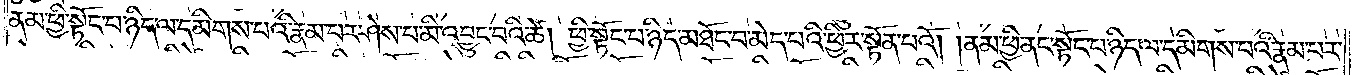ནམ་ཕྱི་སྟོང་པ་ཉིད་ལ་དམིགས་པའི་རྣམ་པར་ཤེས་པ་མི་འབྱུང་བའི་ཚེ། ཕྱི་སྟོང་པ་ཉིད་མཐོང་བ་མེད་པའི་ཕྱིར་སྟོན་པའོ། །ནམ་ཕྱི་ནང་སྟོང་པ་ཉིད་ལ་དམིགས་པའི་རྣམ་པར་
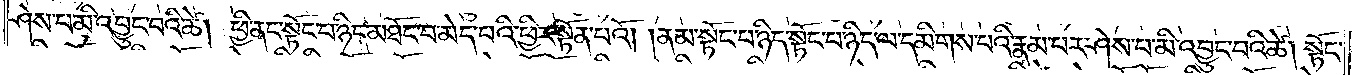ཤེས་པ་མི་འབྱུང་བའི་ཚེ། ཕྱི་ནང་སྟོང་པ་ཉིད་མཐོང་བ་མེད་པའི་ཕྱིར་སྟོན་པའོ། །ནམ་སྟོང་པ་ཉིད་སྟོང་པ་ཉིད་ལ་དམིགས་པའི་རྣམ་པར་ཤེས་པ་མི་འབྱུང་བའི་ཚེ། སྟོང་
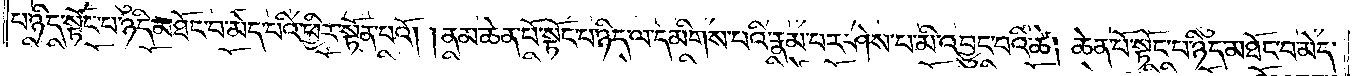པ་ཉིད་སྟོང་པ་ཉིད་མཐོང་བ་མེད་པའི་ཕྱིར་སྟོན་པའོ། །ནམ་ཆེན་པོ་སྟོང་པ་ཉིད་ལ་དམིགས་པའི་རྣམ་པར་ཤེས་པ་མི་འབྱུང་བའི་ཚེ། ཆེན་པོ་སྟོང་པ་ཉིད་མཐོང་བ་མེད་
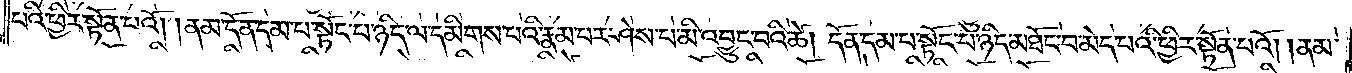པའི་ཕྱིར་སྟོན་པའོ། །ནམ་དོན་དམ་པ་སྟོང་པ་ཉིད་ལ་དམིགས་པའི་རྣམ་པར་ཤེས་པ་མི་འབྱུང་བའི་ཚེ། དོན་དམ་པ་སྟོང་པ་ཉིད་མཐོང་བ་མེད་པའི་ཕྱིར་སྟོན་པའོ། །ནམ་
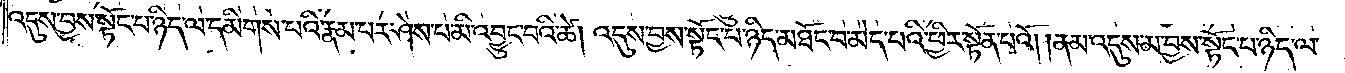འདུས་བྱས་སྟོང་པ་ཉིད་ལ་དམིགས་པའི་རྣམ་པར་ཤེས་པ་མི་འབྱུང་བའི་ཚེ། འདུས་བྱས་སྟོང་པ་ཉིད་མཐོང་བ་མེད་པའི་ཕྱིར་སྟོན་པའོ། །ནམ་འདུས་མ་བྱས་སྟོང་པ་ཉིད་ལ་
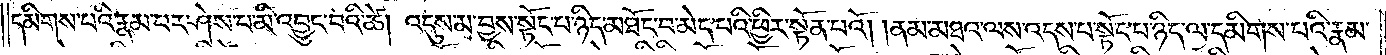དམིགས་པའི་རྣམ་པར་ཤེས་པ་མི་འབྱུང་བའི་ཚེ། འདུས་མ་བྱས་སྟོང་པ་ཉིད་མཐོང་བ་མེད་པའི་ཕྱིར་སྟོན་པའོ། །ནམ་མཐའ་ལས་འདས་པ་སྟོང་པ་ཉིད་ལ་དམིགས་པའི་རྣམ་
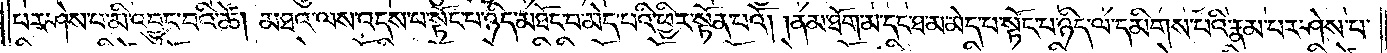པར་ཤེས་པ་མི་འབྱུང་བའི་ཚེ། མཐའ་ལས་འདས་པ་སྟོང་པ་ཉིད་མཐོང་བ་མེད་པའི་ཕྱིར་སྟོན་པའོ། །ནམ་ཐོག་མ་དང་ཐ་མ་མེད་པ་སྟོང་པ་ཉིད་ལ་དམིགས་པའི་རྣམ་པར་ཤེས་པ་
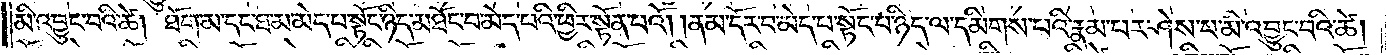མི་འབྱུང་བའི་ཚེ། ཐོག་མ་དང་ཐ་མ་མེད་པ་སྟོང་པ་ཉིད་མཐོང་བ་མེད་པའི་ཕྱིར་སྟོན་པའོ། །ནམ་དོར་བ་མེད་པ་སྟོང་པ་ཉིད་ལ་དམིགས་པའི་རྣམ་པར་ཤེས་པ་མི་འབྱུང་བའི་ཚེ།
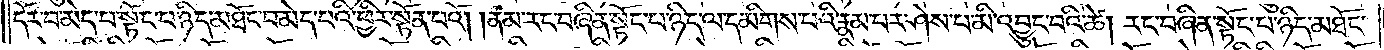དོར་བ་མེད་པ་སྟོང་པ་ཉིད་མཐོང་བ་མེད་པའི་ཕྱིར་སྟོན་པའོ། །ནམ་རང་བཞིན་སྟོང་པ་ཉིད་ལ་དམིགས་པའི་རྣམ་པར་ཤེས་པ་མི་འབྱུང་བའི་ཚེ། རང་བཞིན་སྟོང་པ་ཉིད་མཐོང་
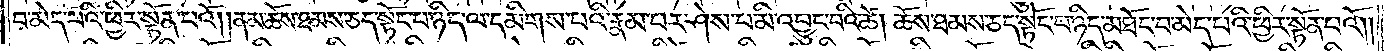བ་མེད་པའི་ཕྱིར་སྟོན་པའོ། །ནམ་ཆོས་ཐམས་ཅད་སྟོང་པ་ཉིད་ལ་དམིགས་པའི་རྣམ་པར་ཤེས་པ་མི་འབྱུང་བའི་ཚེ། ཆོས་ཐམས་ཅད་སྟོང་པ་ཉིད་མཐོང་བ་མེད་པའི་ཕྱིར་སྟོན་པའོ། །
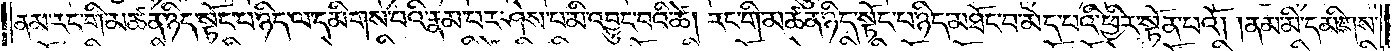ནམ་རང་གི་མཚན་ཉིད་སྟོང་པ་ཉིད་ལ་དམིགས་པའི་རྣམ་པར་ཤེས་པ་མི་འབྱུང་བའི་ཚེ། རང་གི་མཚན་ཉིད་སྟོང་པ་ཉིད་མཐོང་བ་མེད་པའི་ཕྱིར་སྟོན་པའོ། །ནམ་མི་དམིགས་
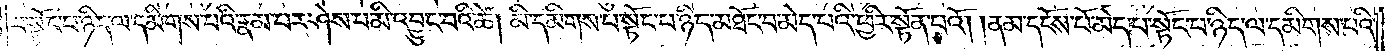པ་སྟོང་པ་ཉིད་ལ་དམིགས་པའི་རྣམ་པར་ཤེས་པ་མི་འབྱུང་བའི་ཚེ། མི་དམིགས་པ་སྟོང་པ་ཉིད་མཐོང་བ་མེད་པའི་ཕྱིར་སྟོན་པའོ། །ནམ་དངོས་པོ་མེད་པ་སྟོང་པ་ཉིད་ལ་དམིགས་པའི་
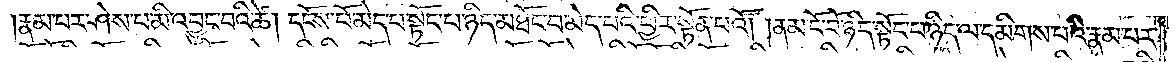རྣམ་པར་ཤེས་པ་མི་འབྱུང་བའི་ཚེ། དངོས་པོ་མེད་པ་སྟོང་པ་ཉིད་མཐོང་བ་མེད་པའི་ཕྱིར་སྟོན་པའོ། །ནམ་ངོ་བོ་ཉིད་སྟོང་པ་ཉིད་ལ་དམིགས་པའི་རྣམ་པར་
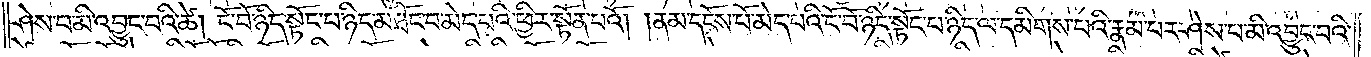ཤེས་པ་མི་འབྱུང་བའི་ཚེ། ངོ་བོ་ཉིད་སྟོང་པ་ཉིད་མཐོང་བ་མེད་པའི་ཕྱིར་སྟོན་པའོ། །ནམ་དངོས་པོ་མེད་པའི་ངོ་བོ་ཉིད་སྟོང་པ་ཉིད་ལ་དམིགས་པའི་རྣམ་པར་ཤེས་པ་མི་འབྱུང་བའི་
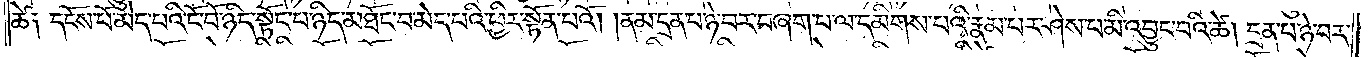ཚེ༑ དངོས་པོ་མེད་པའི་ངོ་བོ་ཉིད་སྟོང་པ་ཉིད་མཐོང་བ་མེད་པའི་ཕྱིར་སྟོན་པའོ། །ནམ་དྲན་པ་ཉེ་བར་བཞག་པ་ལ་དམིགས་པའི་རྣམ་པར་ཤེས་པ་མི་འབྱུང་བའི་ཚེ། དྲན་པ་ཉེ་བར་
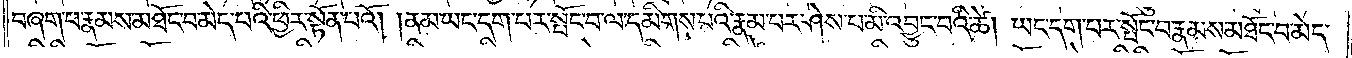བཞག་པ་རྣམས་མཐོང་བ་མེད་པའི་ཕྱིར་སྟོན་པའོ། །ནམ་ཡང་དག་པར་སྤོང་བ་ལ་དམིགས་པའི་རྣམ་པར་ཤེས་པ་མི་འབྱུང་བའི་ཚེ། ཡང་དག་པར་སྤོང་བ་རྣམས་མཐོང་བ་མེད་
